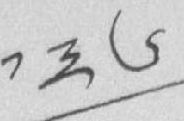༡༣༦
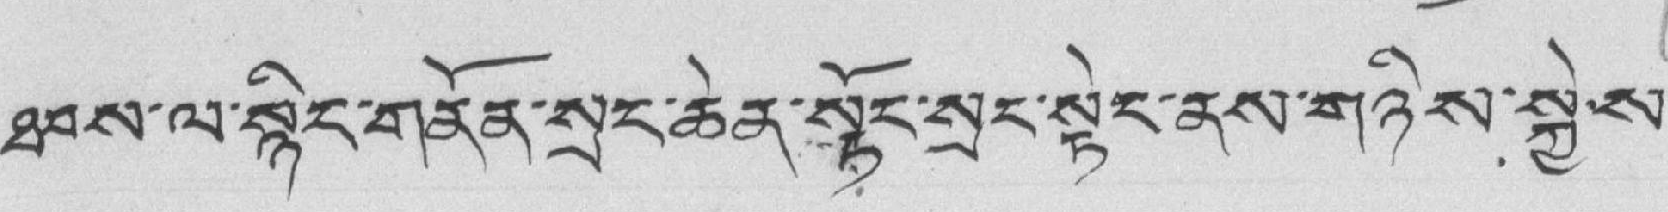ཐབས་ལ་སྙིང་གནོན་སྲང་ཆེན་སྟོང་སྲང་སྟེང་ནས་གཉིས་སྐྱེ་ས་
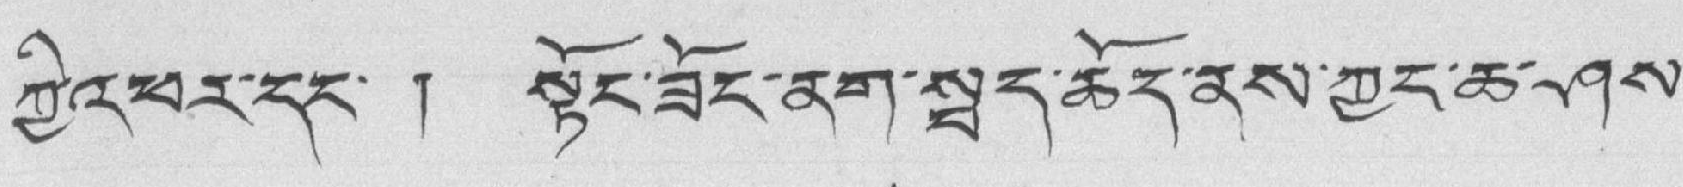ཀྱི་འཕར་དང་ ། སྟོང་ཟོང་ནག་སྦད་ཆོད་ནས་ཀྱང་ཆ་ཤས་
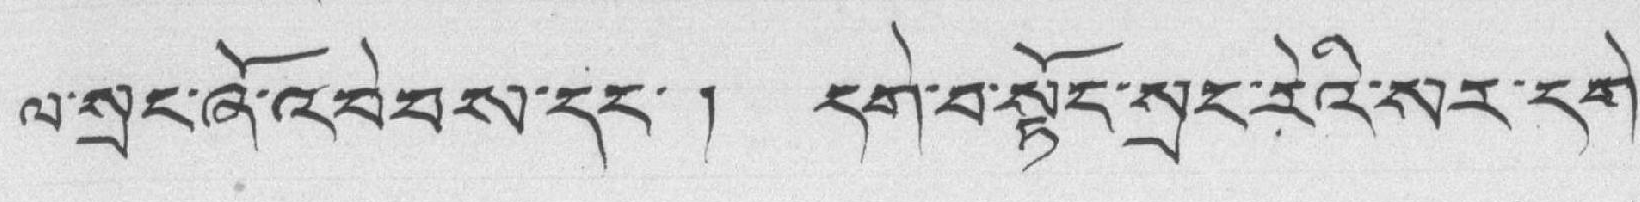ལ་སྲང་ཞོ་འབེབས་དང་། དགེ་བ་སྟོང་སྲང་རེའི་སར་དགེ་
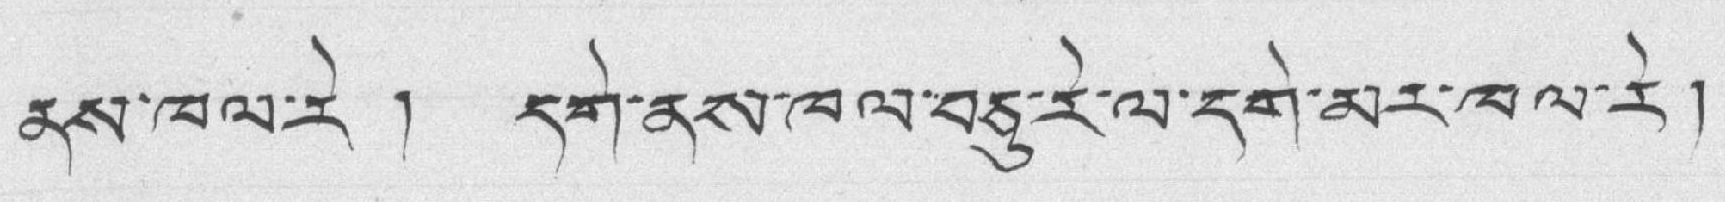ནས་ཁལ་རེ ། དགེ་ནས་ཁལ་བཅུ་རེ་ལ་དགེ་མར་ཁལ་རེ།
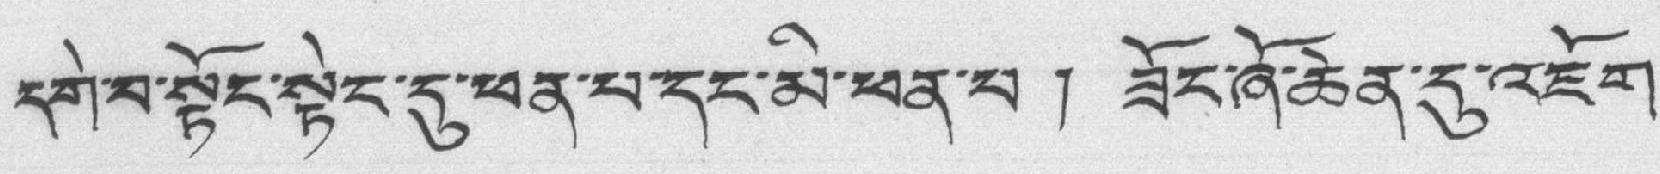དགེ་བ་སྟོང་སྟེང་དུ་ཕན་པ་དང་མི་ཕན་པ ། ཟོང་ཞོ་ཆེན་དུ་འཇོག་
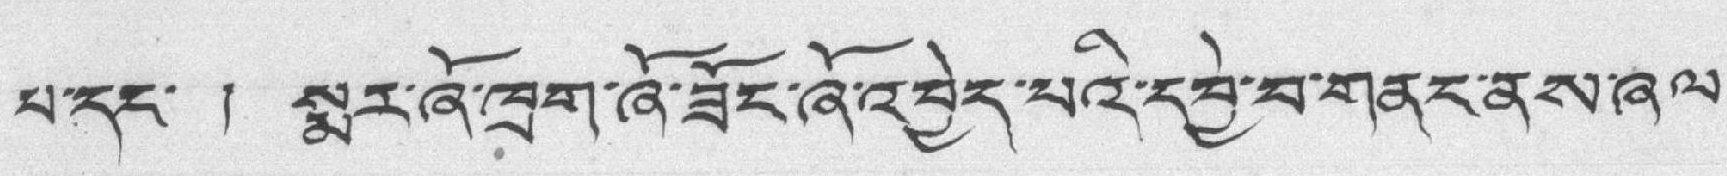པ་དང་ ། སྨར་ཞོ་ཁྲག་ཞོ་ཟོང་ཞོ་འབྱེད་པའི་དབྱེ་བ་གནང་ནས་ཞལ་
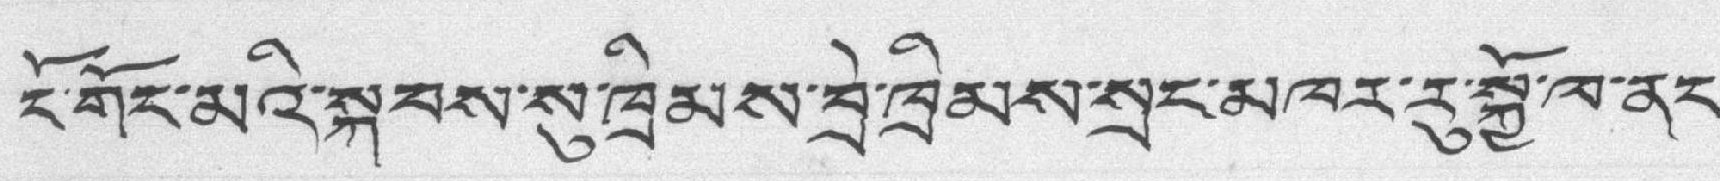ངོ་གོང་མའི་སྐབས་སུ་ཁྲིམས་བྲེ་ཁྲིམས་སྲང་མཁར་རུ་སྐྱོ་ཁ་ནང་
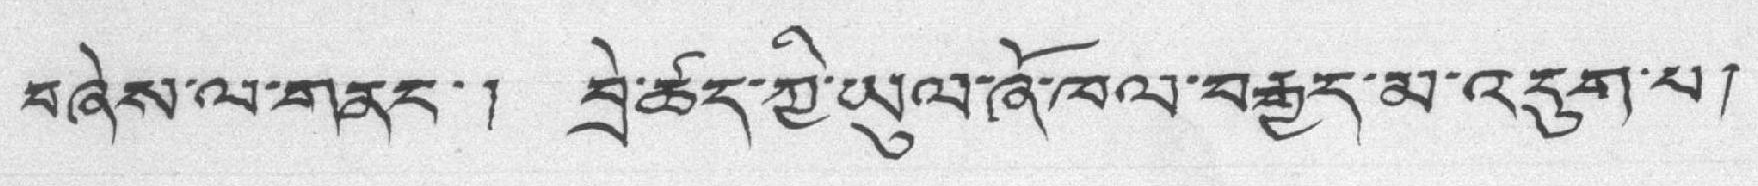བཞེས་ལ་གནང་། བྲེ་ཚད་ཀྱི་ཡུལ་ཞོ་ཁལ་བརྒྱད་མ་འདུག་པ།
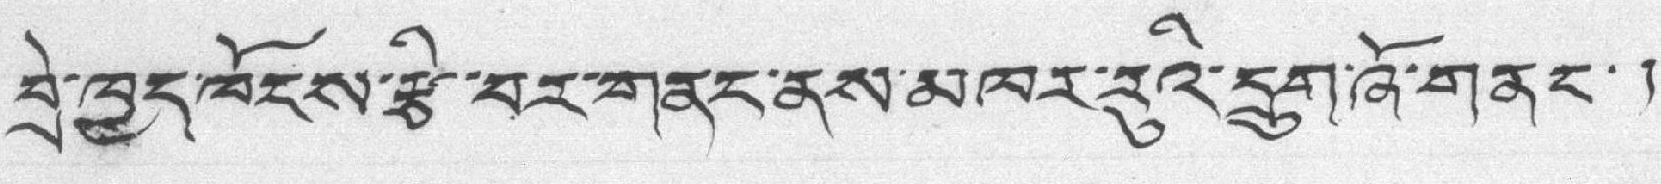བྲེ་ཁྱད་ཁོངས་རྩི་བར་གནང་ནས་མཁར་རུའི་དྲུག་ཞོ་གནང་།
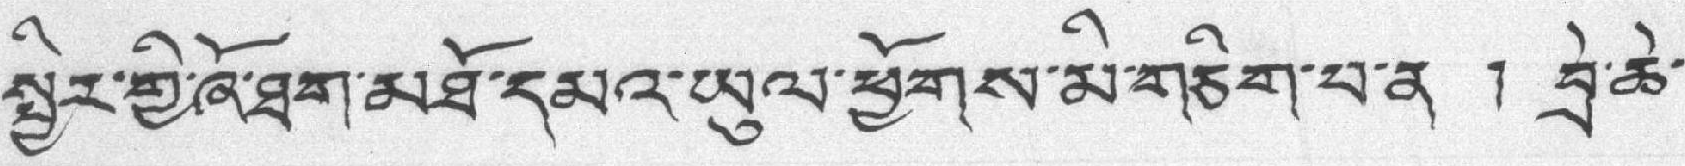སྤྱིར་གྱི་ཞོ་ཐག་མཐོ་དམའ་ཡུལ་ཕྱོགས་མི་གཅིག་པ་ན ། བྲེ་ཆེ་
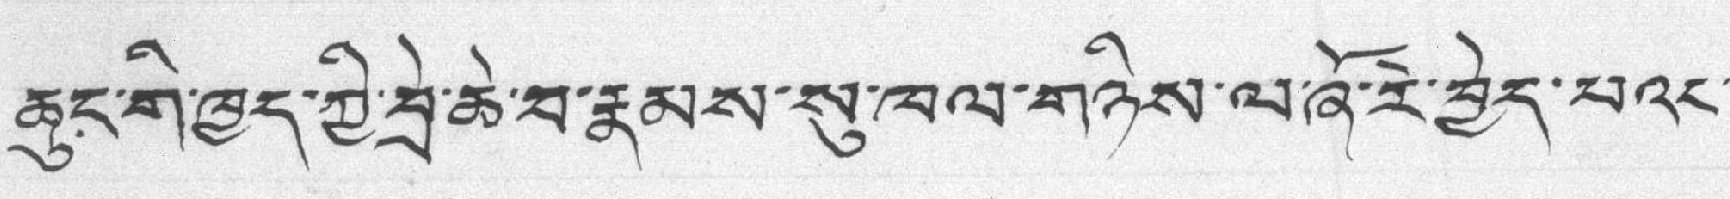ཆུང་གི་ཁྱད་ཀྱི་བྲེ་ཆེ་བ་རྣམས་སུ་ཁལ་གཉིས་ལ་ཞོ་རེ་བྱེད་པའང་
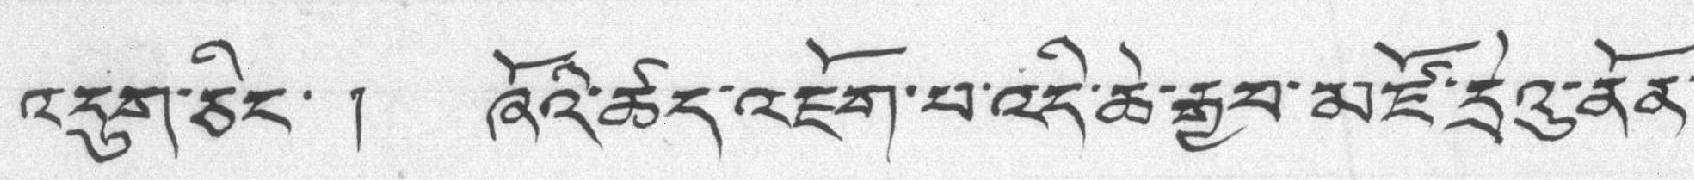འདུག་ཅིང་། ཞོའི་ཚད་འཇོག་པ་འདི་ཆེ་རྒྱབ་མཛོ་དྲེའུ་ནོན་
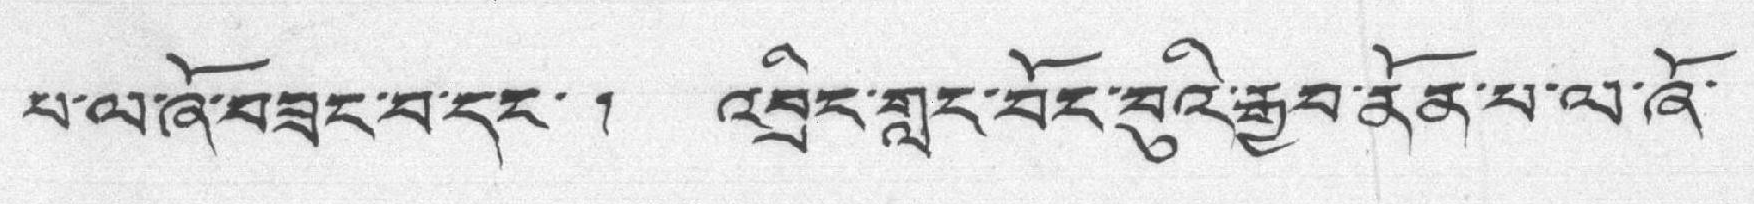པ་ལ་ཞོ་བཟང་བ་དང་། འབྲིང་གླང་བོང་བུའི་རྒྱབ་ནོན་པ་ལ་ཞོ་
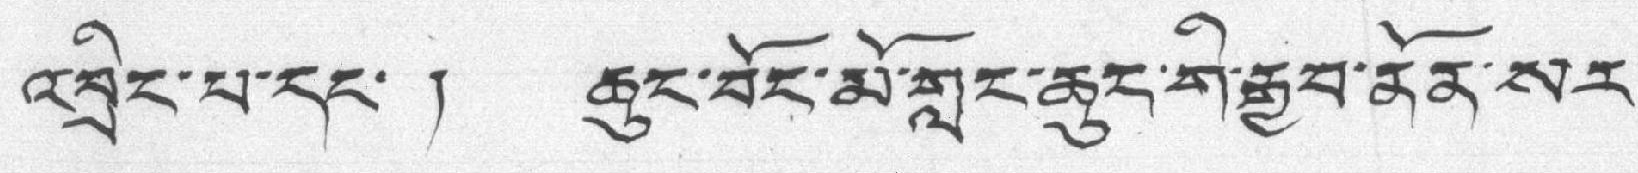འབྲིང་པ་དང་། ཆུང་བོང་མོ་གླང་ཆུང་གི་རྒྱབ་ནོན་སར་
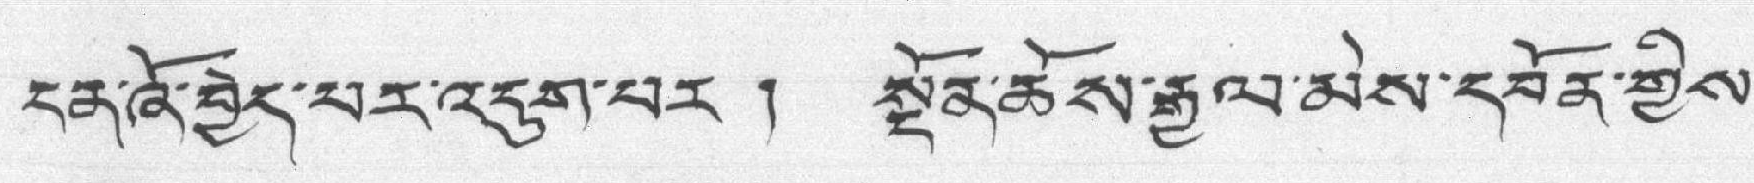ངན་ཞོ་བྱེད་པར་འདུག་པར ། སྔོན་ཆོས་རྒྱལ་མེས་དབོན་གྱིས་
